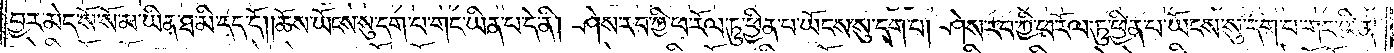བྱར་མེད་སོ་སོ་མ་ཡིན་ཐ་མི་དད་དོ། །ཆོས་ཡོངས་སུ་དག་པ་གང་ཡིན་པ་དེ་ནི། ཤེས་རབ་ཀྱི་ཕ་རོལ་ཏུ་ཕྱིན་པ་ཡོངས་སུ་དག་པ། ཤེས་རབ་ཀྱི་ཕ་རོལ་ཏུ་ཕྱིན་པ་ཡོངས་སུ་དག་པ་གང་ཡིན་
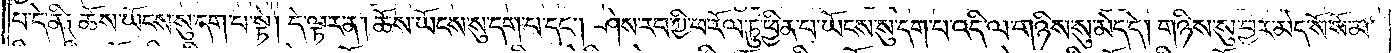པ་དེ་ནི༑ ཆོས་ཡོངས་སུ་དག་པ་སྟེ། དེ་ལྟར་ན། ཆོས་ཡོངས་སུ་དག་པ་དང༌། ཤེས་རབ་ཀྱི་ཕ་རོལ་ཏུ་ཕྱིན་པ་ཡོངས་སུ་དག་པ་འདི་ལ་གཉིས་སུ་མེད་དེ། གཉིས་སུ་བྱར་མེད་སོ་སོ་མ་
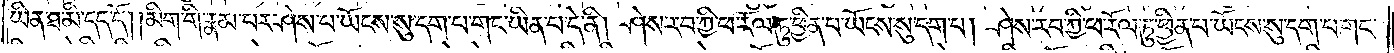ཡིན་ཐ་མི་དད་དོ། །མིག་གི་རྣམ་པར་ཤེས་པ་ཡོངས་སུ་དག་པ་གང་ཡིན་པ་དེ་ནི། ཤེས་རབ་ཀྱི་ཕ་རོལ་ཏུ་ཕྱིན་པ་ཡོངས་སུ་དག་པ། ཤེས་རབ་ཀྱི་ཕ་རོལ་ཏུ་ཕྱིན་པ་ཡོངས་སུ་དག་པ་གང་
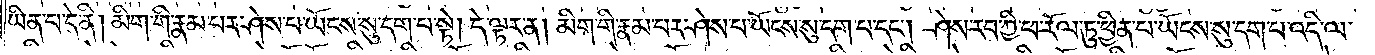ཡིན་པ་དེ་ནི། མིག་གི་རྣམ་པར་ཤེས་པ་ཡོངས་སུ་དག་པ་སྟེ། དེ་ལྟར་ན། མིག་གི་རྣམ་པར་ཤེས་པ་ཡོངས་སུ་དག་པ་དང༌། ཤེས་རབ་ཀྱི་ཕ་རོལ་ཏུ་ཕྱིན་པ་ཡོངས་སུ་དག་པ་འདི་ལ་
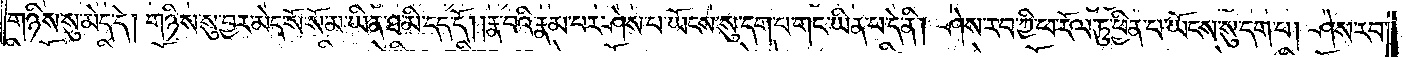གཉིས་སུ་མེད་དེ། གཉིས་སུ་བྱར་མེད་སོ་སོ་མ་ཡིན་ཐ་མི་དད་དོ། །རྣ་བའི་རྣམ་པར་ཤེས་པ་ཡོངས་སུ་དག་པ་གང་ཡིན་པ་དེ་ནི། ཤེས་རབ་ཀྱི་ཕ་རོལ་ཏུ་ཕྱིན་པ་ཡོངས་སུ་དག་པ། ཤེས་རབ་
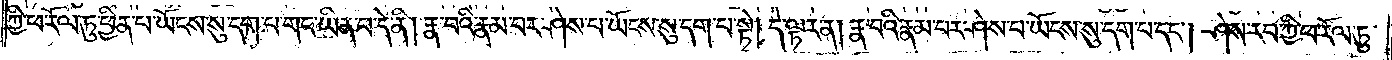ཀྱི་ཕ་རོལ་ཏུ་ཕྱིན་པ་ཡོངས་སུ་དག་པ་གང་ཡིན་པ་དེ་ནི། རྣ་བའི་རྣམ་པར་ཤེས་པ་ཡོངས་སུ་དག་པ་སྟེ། དེ་ལྟར་ན། རྣ་བའི་རྣམ་པར་ཤེས་པ་ཡོངས་སུ་དག་པ་དང༌། ཤེས་རབ་ཀྱི་ཕ་རོལ་ཏུ་
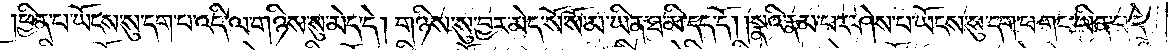ཕྱིན་པ་ཡོངས་སུ་དག་པ་འདི་ལ་གཉིས་སུ་མེད་དེ། གཉིས་སུ་བྱར་མེད་སོ་སོ་མ་ཡིན་ཐ་མི་དད་དོ། །སྣའི་རྣམ་པར་ཤེས་པ་ཡོངས་སུ་དག་པ་གང་ཡིན་པ་དེ་
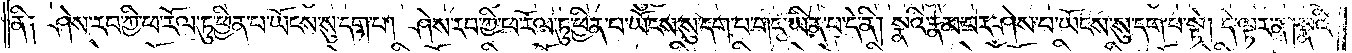ནི༑ ཤེས་རབ་ཀྱི་ཕ་རོལ་ཏུ་ཕྱིན་པ་ཡོངས་སུ་དག་པ། ཤེས་རབ་ཀྱི་ཕ་རོལ་ཏུ་ཕྱིན་པ་ཡོངས་སུ་དག་པ་གང་ཡིན་པ་དེ་ནི། སྣའི་རྣམ་པར་ཤེས་པ་ཡོངས་སུ་དག་པ་སྟེ། དེ་ལྟར་ན། སྣའི་
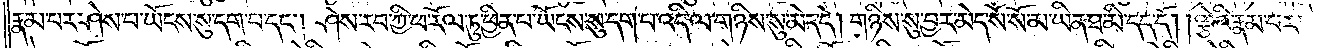རྣམ་པར་ཤེས་པ་ཡོངས་སུ་དག་པ་དང༌། ཤེས་རབ་ཀྱི་ཕ་རོལ་ཏུ་ཕྱིན་པ་ཡོངས་སུ་དག་པ་འདི་ལ་གཉིས་སུ་མེད་དེ། གཉིས་སུ་བྱར་མེད་སོ་སོ་མ་ཡིན་ཐ་མི་དད་དོ། །ལྕེའི་རྣམ་པར་
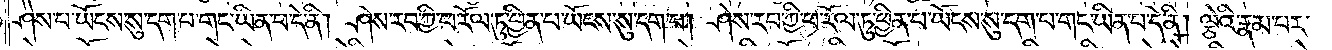ཤེས་པ་ཡོངས་སུ་དག་པ་གང་ཡིན་པ་དེ་ནི། ཤེས་རབ་ཀྱི་ཕ་རོལ་ཏུ་ཕྱིན་པ་ཡོངས་སུ་དག་པ། ཤེས་རབ་ཀྱི་ཕ་རོལ་ཏུ་ཕྱིན་པ་ཡོངས་སུ་དག་པ་གང་ཡིན་པ་དེ་ནི། ལྕེའི་རྣམ་པར་
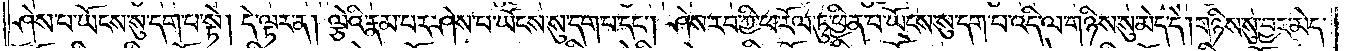ཤེས་པ་ཡོངས་སུ་དག་པ་སྟེ། དེ་ལྟར་ན། ལྕེའི་རྣམ་པར་ཤེས་པ་ཡོངས་སུ་དག་པ་དང༌། ཤེས་རབ་ཀྱི་ཕ་རོལ་ཏུ་ཕྱིན་པ་ཡོངས་སུ་དག་པ་འདི་ལ་གཉིས་སུ་མེད་དེ། གཉིས་སུ་བྱར་མེད་
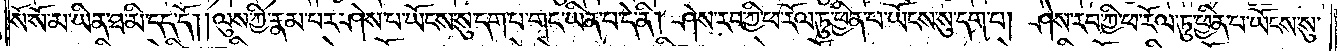སོ་སོ་མ་ཡིན་ཐ་མི་དད་དོ། །ལུས་ཀྱི་རྣམ་པར་ཤེས་པ་ཡོངས་སུ་དག་པ་གང་ཡིན་པ་དེ་ནི། ཤེས་རབ་ཀྱི་ཕ་རོལ་ཏུ་ཕྱིན་པ་ཡོངས་སུ་དག་པ། ཤེས་རབ་ཀྱི་ཕ་རོལ་ཏུ་ཕྱིན་པ་ཡོངས་སུ་
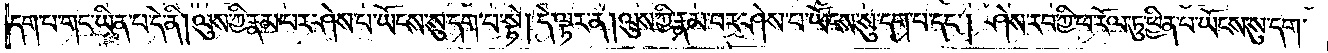དག་པ་གང་ཡིན་པ་དེ་ནི། ལུས་ཀྱི་རྣམ་པར་ཤེས་པ་ཡོངས་སུ་དག་པ་སྟེ། དེ་ལྟར་ན། ལུས་ཀྱི་རྣམ་པར་ཤེས་པ་ཡོངས་སུ་དག་པ་དང༌། ཤེས་རབ་ཀྱི་ཕ་རོལ་ཏུ་ཕྱིན་པ་ཡོངས་སུ་དག་
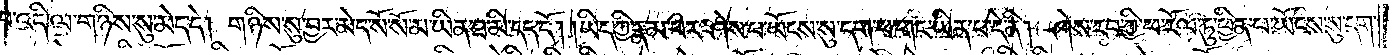པ་འདི་ལ་གཉིས་སུ་མེད་དེ། གཉིས་སུ་བྱར་མེད་སོ་སོ་མ་ཡིན་ཐ་མི་དད་དོ། །ཡིད་ཀྱི་རྣམ་པར་ཤེས་པ་ཡོངས་སུ་དག་པ་གང་ཡིན་པ་དེ་ནི། ཤེས་རབ་ཀྱི་ཕ་རོལ་ཏུ་ཕྱིན་པ་ཡོངས་སུ་དག་
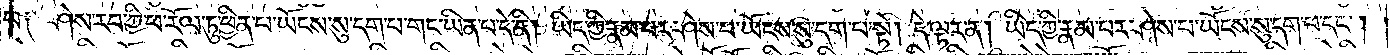པ༑ ཤེས་རབ་ཀྱི་ཕ་རོལ་ཏུ་ཕྱིན་པ་ཡོངས་སུ་དག་པ་གང་ཡིན་པ་དེ་ནི། ཡིད་ཀྱི་རྣམ་པར་ཤེས་པ་ཡོངས་སུ་དག་པ་སྟེ། དེ་ལྟར་ན། ཡིད་ཀྱི་རྣམ་པར་ཤེས་པ་ཡོངས་སུ་དག་པ་དང༌།
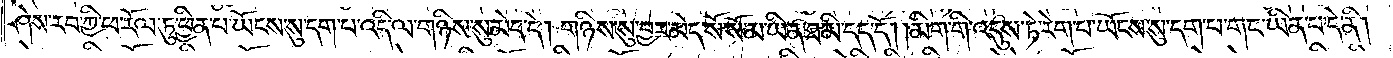ཤེས་རབ་ཀྱི་ཕ་རོལ་ཏུ་ཕྱིན་པ་ཡོངས་སུ་དག་པ་འདི་ལ་གཉིས་སུ་མེད་དེ། གཉིས་སུ་བྱར་མེད་སོ་སོ་མ་ཡིན་ཐ་མི་དད་དོ། །མིག་གི་འདུས་ཏེ་རེག་པ་ཡོངས་སུ་དག་པ་གང་ཡིན་པ་དེ་ནི།
